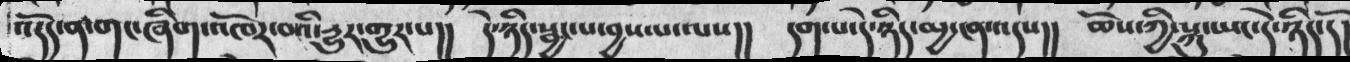འདོད་ན་གང་ཞིག་འཁོར་བའི་དྱུར་གྱུར་པ།།  དེ་ཉིད་སྦྱང་པ་བྱས་པ་ལས།།  དག་པ་དེ་ཉིད་མྱ་ངན་འདས།།  ཆོས་ཀྱི་སྐུ་ཡང་དེ་ཉིད་དོ།
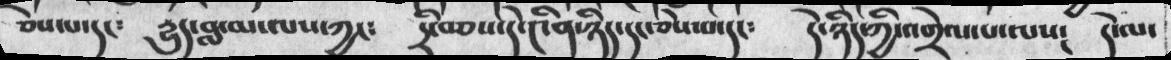ཅེས་པ་དང༴   དྱུད་བླ་མ་ལས་ཀྱང༴  དྲི་བཅས་དེ་༤ིན་ཉིད་དང་ཅེས་པ་དང༴  དེ་ཉིད་ཀྱི་འགྲེལ་པ་ལས༴ དེ་ལ་
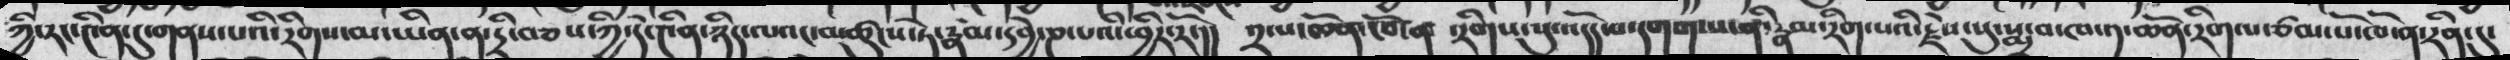ཀྱི་རང་༤ིན་དུ་གནས་པའི་རིགས་མ་ཡིན་ན་དྲི་བཅས་ཀྱི་དེ་༤ིན་ཉིད་ལའང་མཚུངས་ཏེ་རྣམ་དབྱེ་ཎ་པའི་ཕྱིར་རོ་།། ༢་པ་ཆོན་ཁོ་ན ་རིགས་སུ་འདོད་པ་དགག་པ་ནི་རྣམ་རིག་པའི་རྗེས་སུ་སྨྲ་བ་ཁ་༡་ཆོན་རིག་པ་ཙམ་པོ་ཁོ་ན་རིན་དུ་
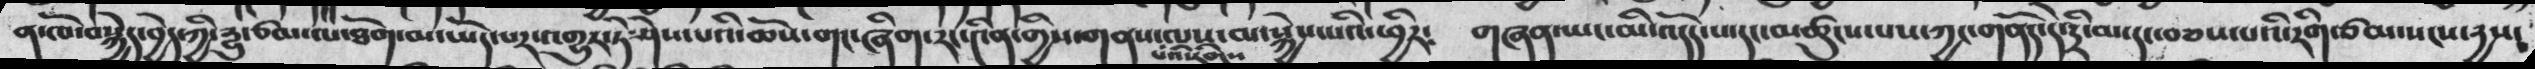ན་ཁོ་བསྐྱེད་བྱེད་ཀྱི་རྒྱུ་ཙམ་ལ་ཐོག་མ་ཡོད་པར་འགྱུར་ཏེ་ཤེ་པའི་ཆོས་གང་ཞིག་རང་༤ིན་གྱིས་གནས་པའི་རིགས་ལས་མ་སྐྱེས་པའི་ཕྱིར༴  གཞན་ཡང་མི་འདོད་པ་དང་མཚུངས་པས་ཀྱང་གནོད་དེའྡྲི་མ་དང་བཅས་པའི་རིག་ཙམ་སངས་དྱས་
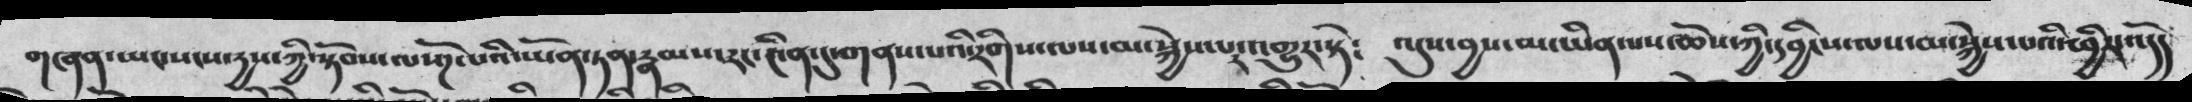གཞན་ཡང་སངས་རྱས་ཀྱི་སྟོབས་ལ་སོཌ་པའི་ཡོན་ཏན་རྣམས་རང་༤ིན་དུ་གནས་པའི་རིགས་ལས་མ་སྐྱེས་པ་འགྱུར་སྟེ༴  འདུས་བྱས་མ་ཡིན་པས་ཆོས་ཀྱི་དབྱིངས་ལས་མ་སྐྱེས་པའི་ཕྱིར་འདོད
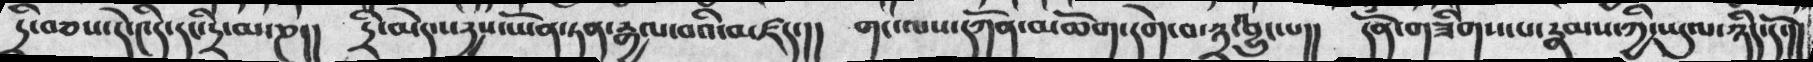དྲི་བཅས་དེ་༤ིན་དང་དྲི་མ་ཎ།།  དྲི་མེད་སདྱས་ཡོན་ཏན་རྒྱལ་བའི་མཛད་།།  གང་ལས་དཀོན་མཆོག་དགེ་བ་༣་བྱུང་པ།།  དོན་གཟིགས་པ་རྣམས་ཀྱི་ཡུལ་ཉིད་དོ་།།
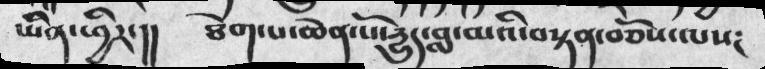ཡིན་ཕྱིར་།།  ཐེག་པ་ཆེན་པོ་དྱུད་བླ་མའི་བསྟན་བཅོས་ལས༴
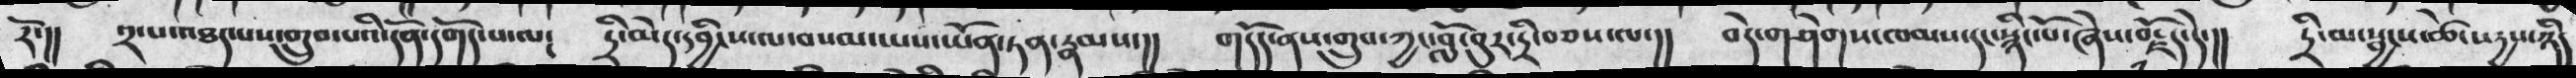རོ་།།  ༢་པ་འཐད་པས་གྲུབ་པའི་དོན་དགོད་པ་ལ༴   དྲི་མེད་དབྱིངས་ལ་བསམ་ཡས་ཡོན་ཏན་རྣམས་།།   གདོད་ནས་གྲུབ་ཀྱང་བློ་བུར་དྲི་བཅས་ལ་།།   བདེ་གཤེགས་ཁམས་དང་སྙིང་པོ་ཞེས་བརྗོད་དེ་།།   དྲི་མ་སྦྱངས་ཚེ་སདྱས་ཉིད
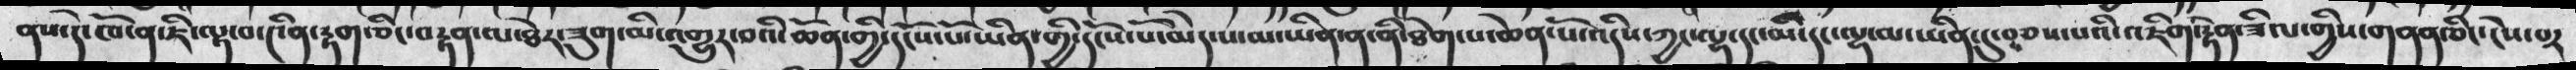ནས་དེ་ཁོ་ན་ཇི་ལྟ་བ་༤ིན་རྟག་ཅིང་བརྟན་ལ་ཐེར་ཟུག་མི་འགྱུར་བའི་ཆོན་གྱི་དངོས་པོ་ཡིན་གྱི་དངོས་པོ་མེད་པ་མ་ཡིན་ན་ནི་ཐེག་པ་ཆེན་པོ་འདིས་ཀྱང་ལྷ་དང་མི་དང་ལྷ་མ་ཡིན་དུ་བཅས་པའི་འཇིག་རྟེན་ཟིལ་གྱིས་གནན་ཅིང་ངེས་པར
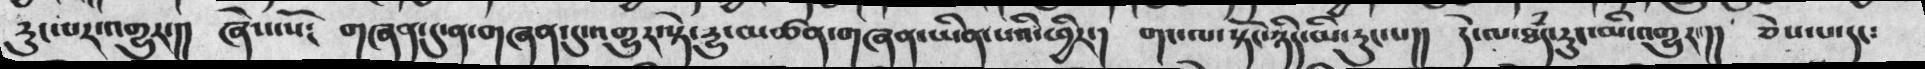རུང་པར་འགྱུར།།  ཞེས་སོ༴  གཞན་དུ་ན་གཞན་དུ་འགྱུར་སྟེ་དྱུ་མཚན་གཞན་ཡིན་པའི་ཕྱིར་།  གང་ལ་སྟོང་ཉིད་མི་རུང་པ།།  དེ་ལ་ཐཾད་རུང་མི་འགྱུར་།།  ཅེས་པ་དང༴
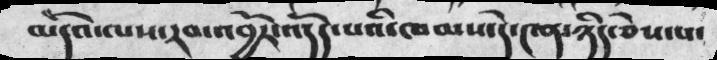མདོའ་ལས་རབ་འབྱོར་འདོད་པའི་ཁམས་དེ་༤ན་ཉིད་ཅེས་པ་
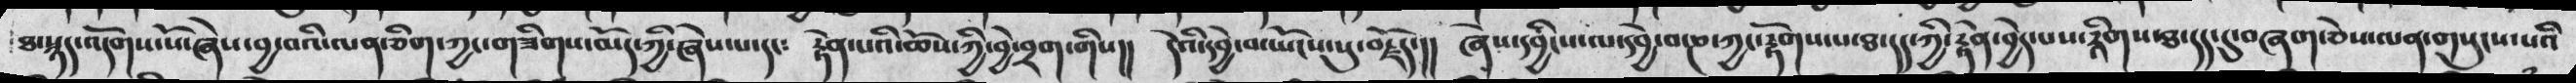ཐ་སྙད་འདོགས་སོ་ཞེས་བྱ་བའི་ལན་ཅིག་ཀྱང་གཟིགས་མོད་ཀྱི་ཞེས་པ་དང༴  རྟེན་པའི་ཆོས་ཀྱི་བྱེ་བྲག་གིས།།  དེའི་དབྱེ་བ་ཡོངས་སུ་བརྗོད་།།  ཞེས་དབྱིངས་ལ་དབྱེ་བ་ཎ་ཀྱང་རྟོགས་པ་ཐ་དད་ཀྱི་རྟེན་བྱེད་པས་རིགས་ཐ་དད་དུ་བཞག་ཅེས་ལན་གསུངས་པའི
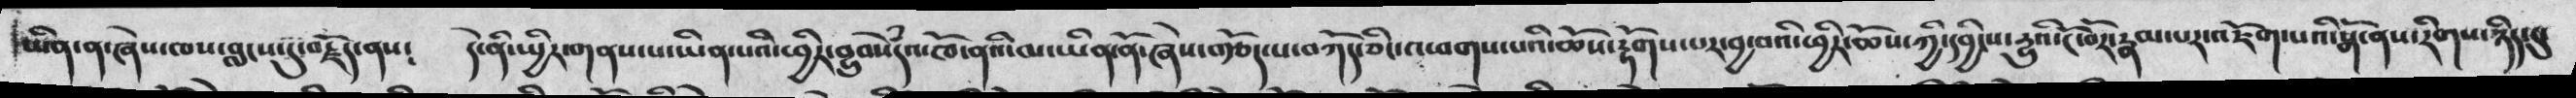ཡིན་ན་ཞེས་ཁས་བླངས་དུ་བརྗོད་ནས༴  དེ་ནི་སྤྱིར་གནས་པ་ཡིན་པའི་ཕྱིར་བྱུབསེཾདའ་ཁོ་ནའི་མ་ཡིན་ནོ་ཞེས་བརྩོད་པ་བཀོད་ཅིང་འཕགས་པའི་ཆོས་རྟོགས་པར་བྱ་བའི་ཕྱིར་ཆོས་ཀྱི་དབྱིངས་དྱུའི་ངོ་བོར་རྣམ་པར་འཇོག་པའི་སྒོ་ནས་རིགས་ཉིད་དུ་
